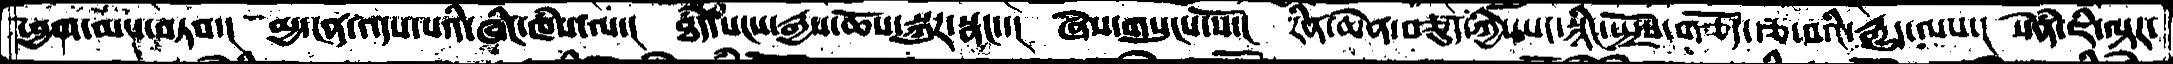ཕྱག་མས་བཏབ་།  མྱ་ངན་འདས་པའི་ཞིང་ཁཾས་ལ་།  ཐཾད་སངས་རྒྱས་ཆོས་སྐུར་སྣང་་།  ཞེས་གསུངས་སོ་།  རིན་ཆེན་བཅུད་ཀྱི་ཡང་སྙིང་སྤྲོས་གཅོད་རྩ་བའི་རྒྱུད་ལས་།  སེཾན་ཇི་ལྟར་
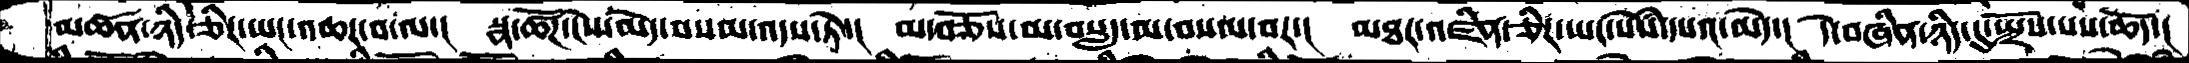མཚན་ཉིད་ཅིར་ཡང་འཆར་བ་ལ་།  སྣ་ཚོཌ་ངེས་མེད་བསམ་འདས་ཏེ་།  མ་བཅོས་མ་བསླད་མ་བསལ་བར་།  མཐར་འཛིན་ཅིར་ཡང་སེཾས་དཔའ་མེད་།  དེ་བཞིན་ཉིད་དུ་སྤྲོས་པས་ཆོད་།
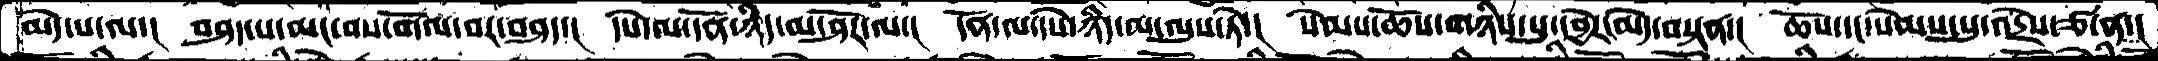མེད་པ་ལ།  བཤད་པ་མང་བས་གོལ་བར་བཤད་།  དཔེ་ལ་དོན་ཉིད་མ་ཤོར་ལ་།  དོན་ལ་དཔེ་ཉིད་མ་ལུས་ཏེ་།  སེམས་ཆོས་གཉིས་སུ་དབྱེར་མེད་བསྟན་།  ཆོས་དང་སེམས་སུ་འདྲེས་ཙ་ན་།
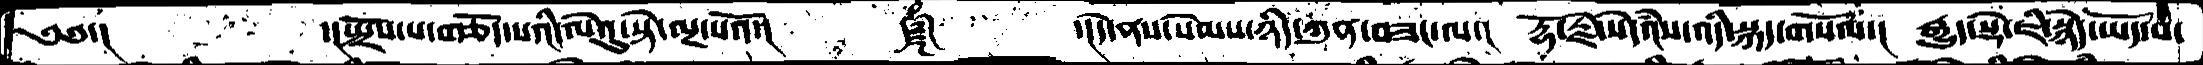༄༅་།      ་།སྤྲོས་པ་གཅོད་པའི་ལེའུ་སྟེ་ལྔ་པའོ་།   ༼༈༽    ་།དེ་ནས་སེམས་ཉིད་ཀུན་བཟང་ལ་། རྡོ་རྗེ་སེདཾའས་འདི་སྐད་གསོལ་། རྒྱུད་སྡེ་ཇི་སྙེད་ཡོད་པ་
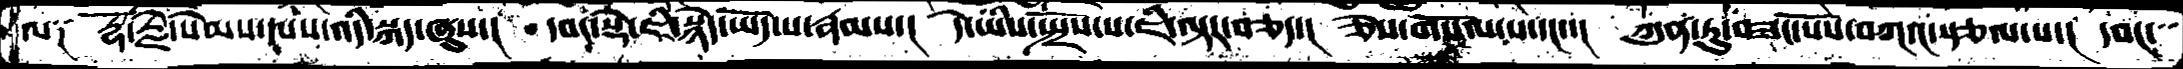ལ༑  རྡོ་རྗེ་སེམས་དཔས་འདི་སྐད་ཞུས་།   དབང་སྡེ་ཇི་སྙེད་ཡོད་པ་རྣམས་།  དེ་ཡིས་སྤྲོས་པ་ཇི་ལྟར་བཅད་།  ཅེས་གསོལ་པ་དང་་།  ཀུན་ཏུ་བཟང་པོས་བཀའ་སྩལ་པ་།  དབང་
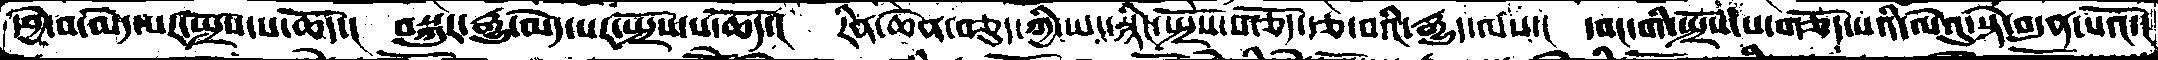དབྱེ་བ་མེད་པར་སྤྲོས་པ་ཆོད་།  བསྐུར་རྒྱུ་མེད་པར་སྤྲོས་པ་ཆོད་།  རིན་ཆེན་བཅུད་ཀྱི་ཡང་སྙིང་སྤྲོས་གཅོད་རྩ་བའི་རྒྱུད་ལས་།  དབང་གི་སྤྲོས་པ་གཅོད་པའི་ལེའུ་སྟེ་བདུན་པའོ་།
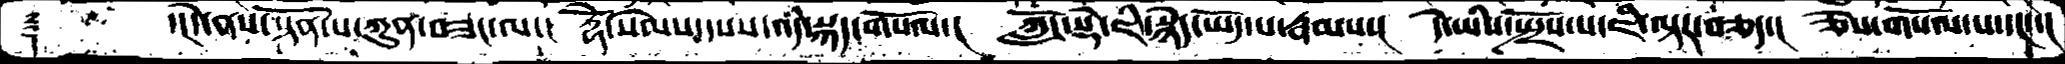༈       ་།དེ་ནས་སྟོན་པ་ཀུན་བཟང་ལ་།  རྡོེ་སེམས་དཔས་འདི་སྐད་གསོལ་།  ཀློང་སྡེ་ཇི་སྙེད་ཡོད་པ་རྣམས་།  དེ་ཡིས་སྤྲོས་པ་ཇི་ལྟར་བཅད་།  ཅེས་གསོལ་པ་དང་་།
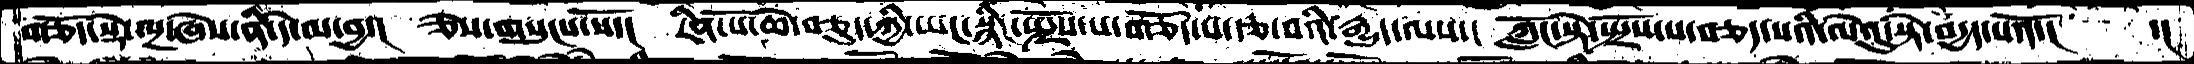གཅོད་སྡེ་ལྔ་ཞེས་ནི་དེ་ལ་བྱ་།  ཅེས་གསུངས་སོ་།  རིན་པོ་ཆེ་བཅུད་ཀྱི་ཡང་སྙིང་སྤྲོས་པ་གཅོད་པ་རྩ་བའི་རྒྱུད་ལས་།  ཀློང་སྡེ་སྤྲོས་པ་བཅད་པའི་ལེའུ་སྟེ་བདྱད་པའོ་།   ་།
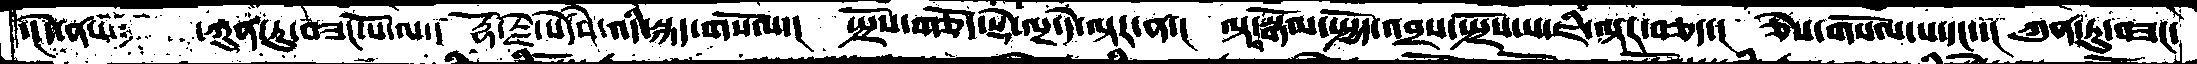་།དེ་ནས་  ཀུནཏུ་བཟང་པོ་ལ་།   རྡོ་རྗེ་སེཾདའ་འདི་སྐད་གསོལ་།  སྤྲོས་གཅོད་སྡེ་ལྔ་དེ་ལྟར་ན་།  ལྟ་སྒོམ་སྤྱོད་འབྲས་སྤྲོས་པ་ཇི་ལྟར་བཅད་།  ཅེས་གསོལ་པ་དང་་།  ཀུན་ཏུ་བཟང་
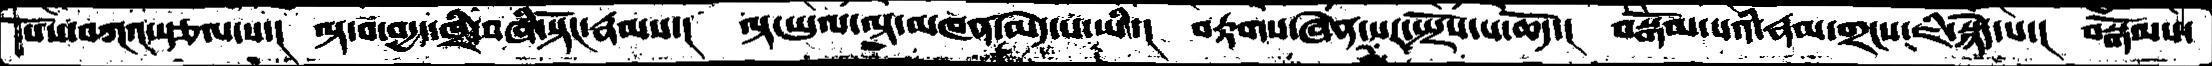པོ་བཀའ་སྩལ་པ་།  ལྟ་བ་བདྱད་ཁྲི་བཞི་སྟོང་རྣམས་།  ལྟ་ཡུལ་ལྟ་མཁན་མེད་པ་ཡི་།  བརྟགས་ཞེན་སར་སྤྲོས་པ་ཆོད་།  བསྒོམ་པའི་རྣམ་གྲངས་ཇི་སྙེད་པ་།  བསྒོམས་
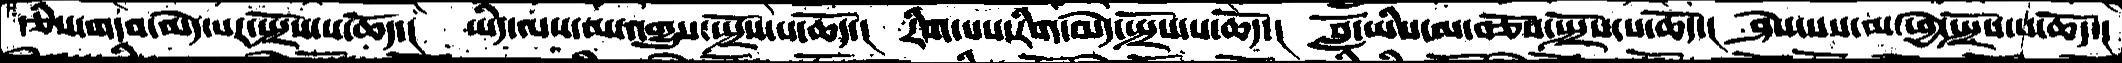རྩིས་གདབ་མེད་པར་སྤྲོས་པ་ཆོད་།  ཡིད་ལས་མ་འགྱུས་སྤྲོས་པ་ཆོད་།  རིག་པས་རིག་མེད་སྤྲོས་པ་ཆོད་།  བློ་ཡིས་མ་བཅོས་སྤྲོས་པ་ཆོད་།  ཤེས་པས་མ་ཕྱེ་སྤྲོས་པ་ཆོད་།
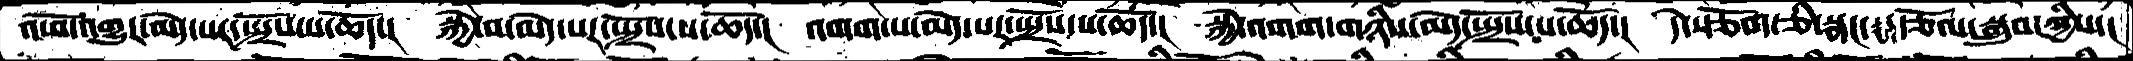འཕོ་འགྱུརམེད་པར་སྤྲོས་པ་ཆོད་།  སྐྱེ་བ་མེད་པར་སྤྲོས་པ་ཆོད་།  འགག་པ་མེད་པར་སྤྲོས་པ་ཆོད་།  སྐྱེ་འགག་གཉིས་མེད་སྤྲོས་པ་ཆོད་།  དེ་སྩོག་ཅི་སྣང་  རྩོལ་སྒྲུབ་ཀྱིས་།
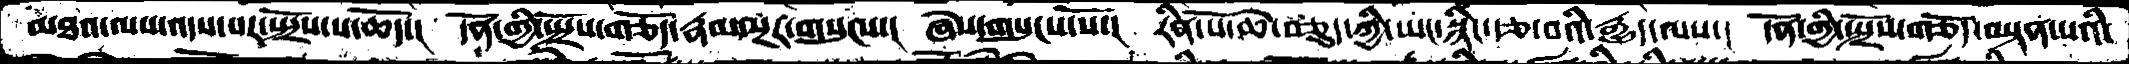མཐའ་ལས་འདས་པར་སྤྲོས་པ་ཆོད་།  དོན་གྱི་སྤྲོས་གཅོད་རྣམ་སྔར་གསུངས་།  ཞེས་གསུངས་སོ་།  རིན་པོ་ཆེ་བཅུད་ཀྱི་ཡང་སྙིང་རྩ་བའི་རྒྱུད་ལས་།  དོན་གྱི་སྤྲོས་གཅོད་བསྟན་པའི་
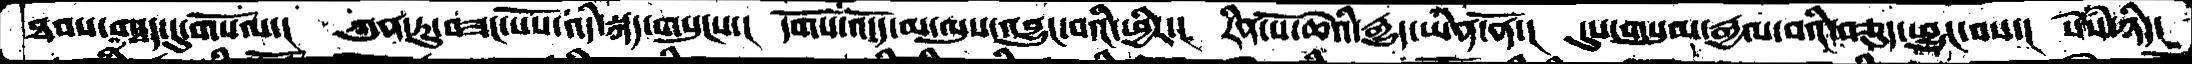ཐབས་བཤད་དུ་གསོལ་།  ཀུན་ཏུ་བཟང་པོས་འདི་སྐད་གསུངས་།  དགོས་འདོད་མ་ལུས་འབྱུང་བའི་ཕྱིར་།  རིན་པོ་ཆེའི་རྒྱུད་ཡིན་ནོ་།  དུས་གསུམ་རྒྱལ་བའི་བཅུད་ཕྱུང་བས་།  སེསཾ་ཉིད་
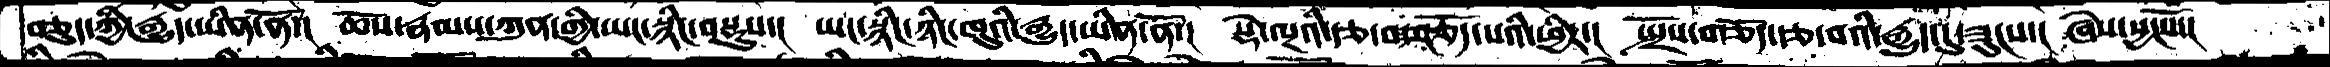བཅུད་ཀྱི་རྒྱུད་ཡིན་ནོ་།  ཆོས་རྣམས་ཀུན་གྱི་ཡང་སྙིང་བསྡུས་། ཡང་སྙིང་ཉིང་ཁུའི་རྒྱུད་ཡིན་ནོ་།  སྡེ་ལྔའི་རྩ་བ་གཅོད་པའི་ཕྱིར་།  སྤྲོས་གཅོད་རྩ་བའི་རྒྱུད་དུ་ཟུངས་།  ཞེས་སྱངསོ་།
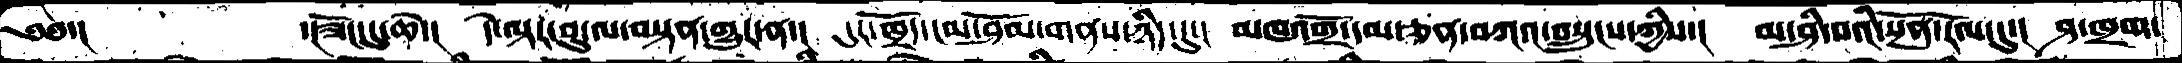༄༅་།        ་།ཟོང་དུ་ཆེ་།  དེ་ལྟར་བུ་ལ་བསྟན་གྱུར་ན་།  དུར་ཁྲོད་ངམ་ཤོམ་གནས་ཉིད་དུ་།   མཁའ་གྲོ་དམ་ཅན་བཀའ་བསྲུང་་ཀྱིས་།  མ་ཤི་བའི་སྔོན་རོལ་དུ་།  ཤ་ཁྲག་
